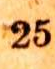25
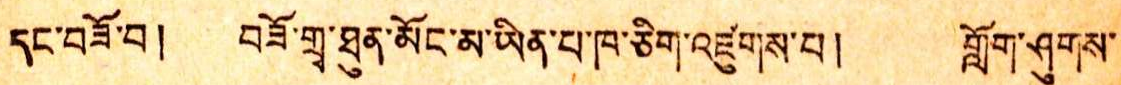དང་བཟོ་བ། བཟོ་གྲྭ་ཐུན་མོང་མ་ཡིན་པ་ཁ་ཅིག་འཛུགས་པ། གློག་ཤུགས་
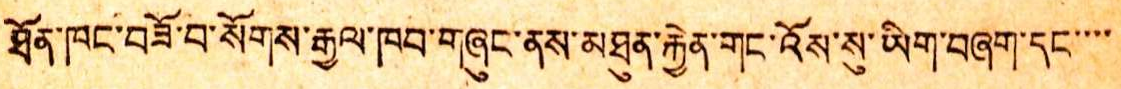ཐོན་ཁང་བཟོ་བ་སོགས་རྒྱལ་ཁབ་གཞུང་ནས་མཐུན་རྐྱེན་གང་འོས་སུ་ཡིག་གཞག་དང་་་་
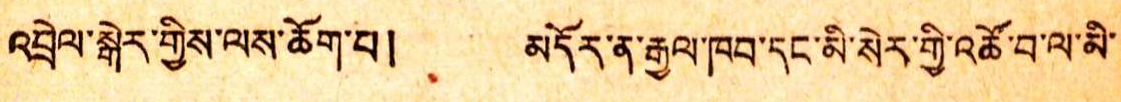འབྲེལ་སྒེར་གྱིས་ལས་ཆོག་པ། མདོར་ན་རྒྱལ་ཁབ་དང་མི་སེར་གྱི་འཚོ་བ་ལ་མི་
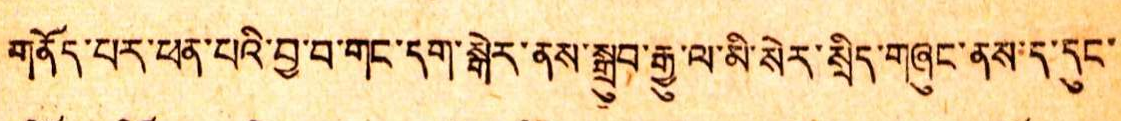གནོད་པར་ཕན་པའི་བྱ་བ་གང་དག་སྒེར་ནས་སྒྲུབ་རྒྱུ་ལ་མི་སེར་སྲིད་གཞུང་ནས་ད་དུང་
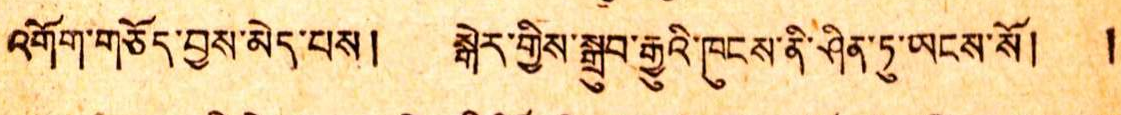འགོག་གཅོད་བྱས་མེད་པས། སྒེར་གྱིས་སྒྲུབ་རྒྱུའི་ཁུངས་ནི་ཤིན་ཏུ་ཡངས་སོ། །
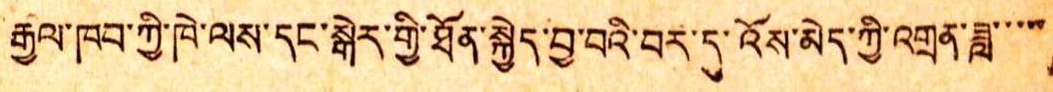རྒྱལ་ཁབ་ཀྱི་ཁེ་ལས་དང་སྒེར་གྱི་ཐོན་སྐྱེད་བྱ་བའི་བར་དུ་འོས་མེད་ཀྱི་འགྲན་ཟླ་་་་་
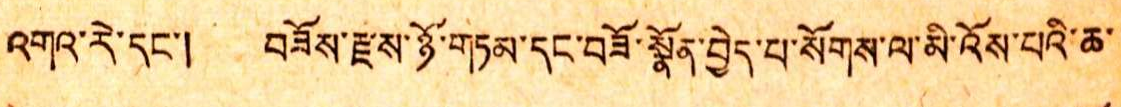འགའ་རེ་དང་། བཟོས་རྫས་ཉོ་གཏམ་དང་བཟོ་སྣོན་བྱེད་པ་སོགས་ལ་མི་འོས་པའི་ཆ་
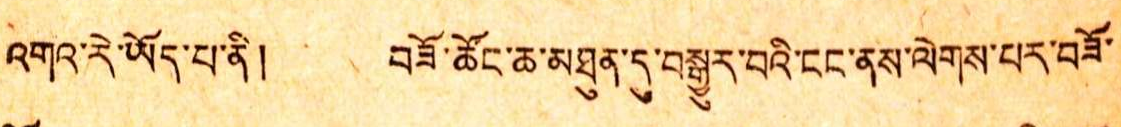འགའ་རེ་ཡོད་པ་ནི། བཟོ་ཚོང་ཆ་མཐུན་དུ་བསྒྱུར་བའི་ངང་ནས་ལེགས་པར་བཟོ་
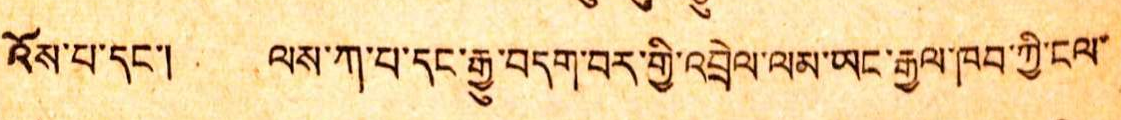འོས་པ་དང་། ལས་ཀ་པ་དང་རྒྱུ་བདག་བར་གྱི་འབྲེལ་ལམ་ཡང་རྒྱལ་ཁབ་ཀྱི་ངལ་
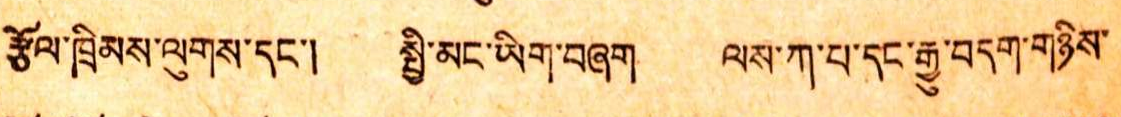རྩོལ་ཁྲིམས་ལུགས་དང་། སྤྱི་མང་ཡིག་བཞག ལས་ཀ་པ་དང་རྒྱུ་བདག་གཉིས་
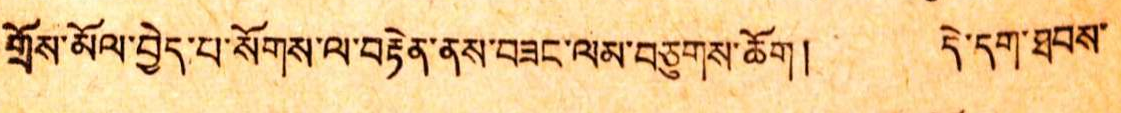གྲོས་མོལ་བྱེད་པ་སོགས་ལ་བརྟེན་ནས་བཟང་ལམ་བཅུགས་ཆོག། དེ་དག་ཐབས་
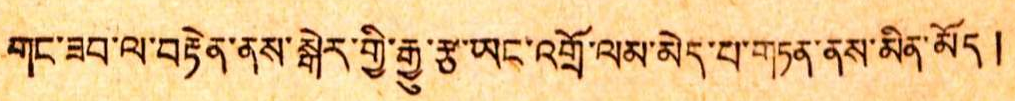གང་ཟབ་ལ་བརྟེན་ནས་སྒེར་གྱི་རྒྱུ་རྩ་ཡང་འགྲོ་ལམ་མེད་པ་གཏན་ནས་མིན་མོད །
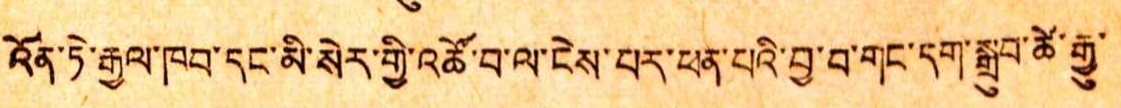ལོན་ཏེ་རྒྱལ་ཁབ་དང་མི་སེར་གྱི་འཚོ་བ་ལ་ངེས་པར་ཕན་པའི་བྱ་བ་གང་དག་སྒྲུབ་ཚེ་རྒྱུ་
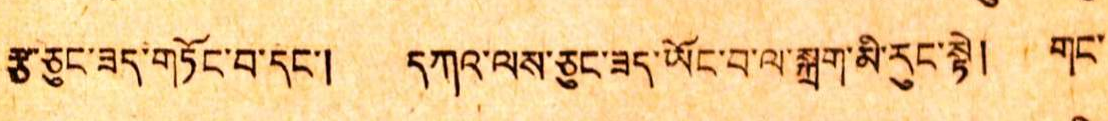རྩ་ཅུང་ཟད་གཏོང་བ་དང་། དཀའ་ལས་ཅུང་ཟད་ཡོང་བ་ལ་སྐྲག་མི་རུང་སྟེ། གང་
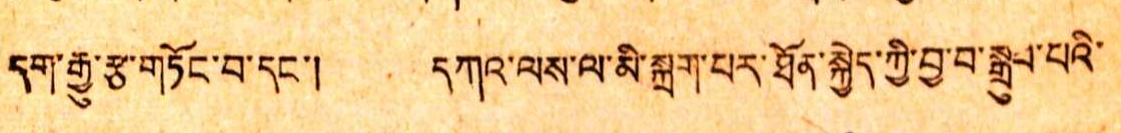དག་རྒྱུ་རྩ་གཏོང་བ་དང་། དཀའ་ལས་ལ་མི་སྐྲག་པར་ཐོན་སྐྱེད་ཀྱི་བྱ་བ་སྒྲུབ་པའི་
